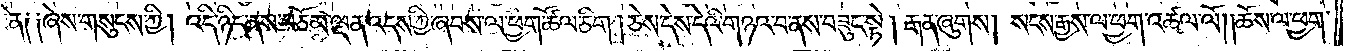ཡིན། །ཞེས་གསུངས་ཀྱི། འདི་ཉིད་ནས་བཅོམ་ལྡན་འདས་ཀྱི་ཞབས་ལ་ཕྱག་འཚོལ་ཅིག །ཅེས་དེས་དེའི་གཉའ་བ་ནས་བཟུང་སྟེ། རྒན་ཞུགས། སངས་རྒྱས་ལ་ཕྱག་འཚལ་ལོ། །ཆོས་ལ་ཕྱག་
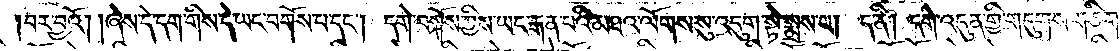བར་བྱའོ། །ཞེས་དེ་དག་གིས་དེ་ཡང་བགོས་པ་དང༌། དགེ་བསྐོས་ཀྱིས་ཡང་རྒན་པའི་མཐའ་ལོགས་སུ་འདུག་སྟེ་སྨྲས་པ། ད་ནི། དགེ་འདུན་གྱི་གདུགས་གཅིག་
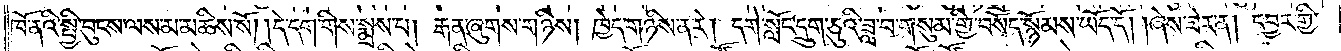ཁོ་ནའི་སྤྱི་བུངས་ལས་མ་མཆིས་སོ། །དེ་དག་གིས་སྨྲས་པ། རྒན་ཞུགས་གཉིས། ཁྱེད་གཉིས་ན་རེ། དགེ་སློང་དྲུག་ཅུའི་ཟླ་བ་གསུམ་གྱི་བསོད་སྙོམས་ཡོད་དོ། །ཞེས་ཟེར་ན། དབྱར་གྱི་
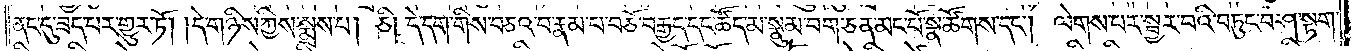ནང་དུ་ཟད་པར་གྱུར་ཏོ། །དེ་གཉིས་ཀྱིས་སྨྲས་པ། ཅི། དེ་དག་གིས་བཅའ་བ་རྣམ་པ་བཅོ་བརྒྱད་དང་ཚོད་མ་སྣུམ་བག་ཅན་མང་པོ་སྣ་ཚོགས་དང༌། ལེགས་པར་སྦྱར་བའི་བཏུང་བ་ཤ་སྟག་
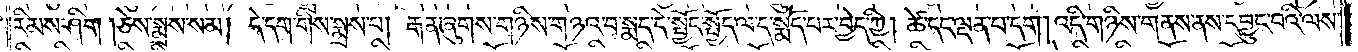རིམས་ཤིག །ཅེས་སྨྲས་སམ། དེ་དག་གིས་སྨྲས་པ། རྒན་ཞུགས་གཉིས་གཉའ་བ་སྨད་དེ་སྤྱོད་སྤྱོད་ལ་ད་སྨོད་པར་བྱེད་ཀྱི། ཚེ་དང་ལྡན་པ་དག། འདི་གཉིས་གནས་ནས་དབྱུང་བའི་ལས་
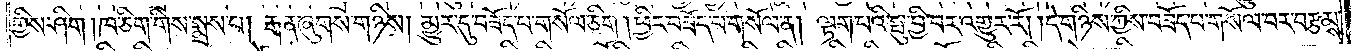གྱིས་ཤིག །ཁ་ཅིག་གིས་སྨྲས་པ། རྒན་ཞུགས་གཉིས། མྱུར་དུ་བཟོད་པ་གསོལ་ཅིག །ཕྱིར་བཟོད་པ་གསོལ་ན། ལྟག་པའི་སྤུ་བྱི་བར་འགྱུར་རོ། །དེ་གཉིས་ཀྱིས་བཟོད་པ་གསོལ་བར་བརྩམས་
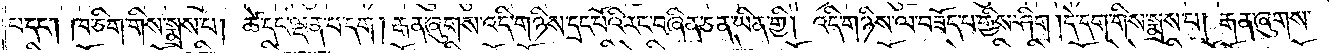པ་དང༌། ཁ་ཅིག་གིས་སྨྲས་པ། ཚེ་དང་ལྡན་པ་དག། རྒན་ཞུགས་འདི་གཉིས་དྲང་པོའི་རང་བཞིན་ཅན་ཡིན་གྱི། འདི་གཉིས་ལ་བཟོད་པ་གྱིས་ཤིག །དེ་དག་གིས་སྨྲས་པ། རྒན་ཞུགས་
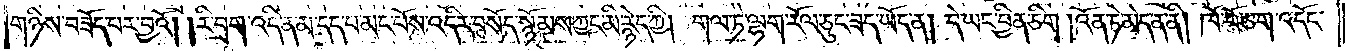གཉིས་བཟོད་པར་བྱའོ། །རི་བྲག་འདི་ན་མ་དད་པ་མང་པོས་འདིར་བསོད་སྙོམས་ཀྱང་མི་རྙེད་ཀྱི། གལ་ཏེ་ལྷག་རོལ་ཅུང་ཟད་ཡོད་ན། དེ་ཡང་བྱིན་ཅིག །འོན་ཏེ་མེད་ན་ནི། ཁོ་བོ་ཅག་འདོང་
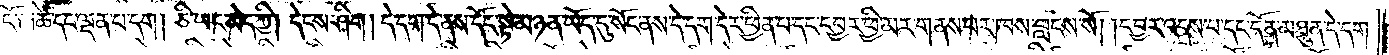ངོ༌། །ཚེ་དང་ལྡན་པ་དག། ཅི་ཡང་མེད་ཀྱི། དེངས་ཤིག །དེ་དག་དེ་ནས་དོང་སྟེ་མཉན་ཡོད་དུ་སོང་ནས་དེ་དག་དེར་ཕྱིན་པ་དང་དབྱར་ཕྱི་མར་གནས་པར་ཁས་བླངས་སོ། །དབྱར་འདས་པ་དང་དོན་མཐུན་དེ་དག་
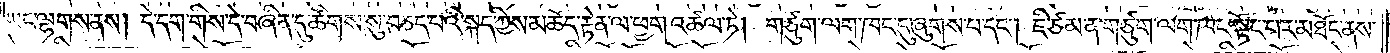ཡང་ལྷགས་ནས། དེ་དག་གིས་དེ་བཞིན་དུ་ཚིགས་སུ་བཅད་པའི་སྐད་ཀྱིས་མཆོད་རྟེན་ལ་ཕྱག་འཚལ་ཏེ། གཙུག་ལག་ཁང་དུ་ཞུགས་པ་དང༌། ཇི་ཙམ་ན་གཙུག་ལག་ཁང་སྟོང་པར་མཐོང་ནས་
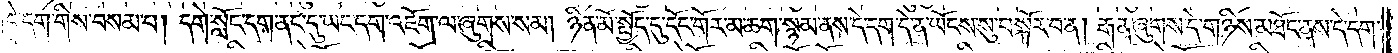དེ་དག་གིས་བསམ་པ། དགེ་སློང་དག་ནང་དུ་ཡང་དག་འཇོག་ལ་ཞུགས་སམ། ཉིན་མོ་སྤྱོད་དུ་དོང་གོར་མ་ཆག་སྙམ་ནས་དེ་དག་དེ་ན་ཡོངས་སུ་བསྐོར་བ་ན། རྒན་ཞུགས་དེ་གཉིས་མཐོང་ནས་དེ་དག་
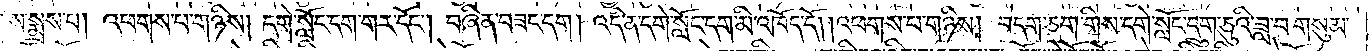གིས་སྨྲས་པ། འཕགས་པ་གཉིས། དགེ་སློང་དག་གར་དོང༌། བཞིན་བཟང་དག། འདི་ན་དགེ་སློང་དག་མི་འཁོད་དོ། །འཕགས་པ་གཉིས། བདག་ཅག་གིས་དགེ་སློང་དྲུག་ཅུའི་ཟླ་བ་གསུམ་
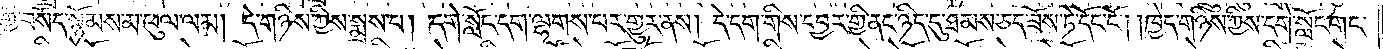གྱི་བསོད་སྙོམས་མ་ཕུལ་ལམ། དེ་གཉིས་ཀྱིས་སྨྲས་པ། དགེ་སློང་དག་ལྷགས་པར་གྱུར་ནས། དེ་དག་གིས་དབྱར་གྱི་ནང་ཉིད་དུ་ཐམས་ཅད་ཟོས་ཏེ་དོང་ངོ༌། །ཁྱེད་གཉིས་ཀྱིས་དགེ་སློང་གང་
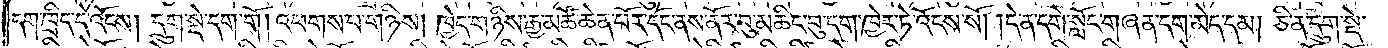དག་ཁྲིད་དེ་འོངས། དྲུག་སྡེ་དག་གོ ། འཕགས་པ་གཉིས། ཁྱེད་གཉིས་རྒྱ་མཚོ་ཆེན་པོར་དོང་ནས་ནོར་བུ་མཆིང་བུ་དག་ཁྱེར་ཏེ་འོངས་སོ། །དེ་ན་དགེ་སློང་གཞན་དག་མེད་དམ། ཅི་ན་དྲུག་སྡེ་
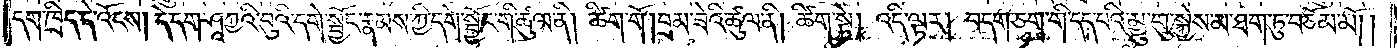དག་ཁྲིད་དེ་འོངས། དེ་དག་ཤཱཀྱའི་བུའི་དགེ་སྦྱོང་རྣམས་ཀྱི་དགེ་སྦྱོང་གི་ཚུལ་ནི། ཚིག་གོ །བྲམ་ཟེའི་ཚུལ་ནི། ཚིག་སྟེ། འདི་ལྟར། བདག་ཅག་གི་དད་པའི་མྱུ་གུ་སྐྱེས་མ་ཐག་ཏུ་བཅོམ་མོ། །
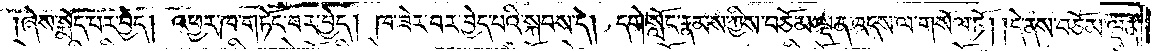ཞེས་སྨོད་པར་བྱེད། འཕྱར་ཁ་གཏོང་བར་བྱེད། ཁ་ཟེར་བར་བྱེད་པའི་སྐབས་དེ། དགེ་སློང་རྣམས་ཀྱིས་བཅོམ་ལྡན་འདས་ལ་གསོལ་ཏོ། །དེ་ནས་བཅོམ་ལྡན་
